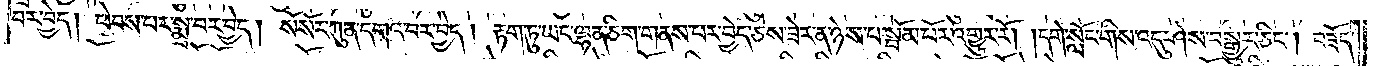བར་བྱེད། ཕེབས་པར་སྨྲ་བར་བྱེད། སོ་སོར་ཀུན་དགའ་བར་བྱེད། རྟག་ཏུ་ཡང་ལྷན་ཅིག་གནས་པར་བྱེད་ཅེས་ཟེར་ན་ཉེས་པ་སྦོམ་པོར་འགྱུར་རོ། །དགེ་སློང་གིས་འདུ་ཤེས་བསྒྱུར་ཅིང༌། བཟོད་
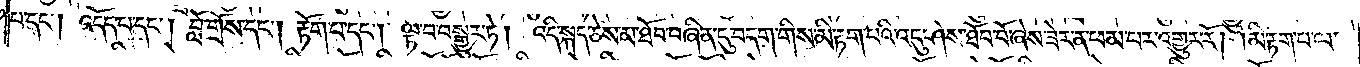པ་དང༌། འདོད་པ་དང༌། བློ་གྲོས་དང༌། རྟོག་པ་དང༌། ལྟ་བ་བསྒྱུར་ཏེ། འདི་སྐད་ཅེས་མ་ཐོབ་བཞིན་དུ་བདག་གིས་མི་རྟག་པའི་འདུ་ཤེས་ཐོབ་བོ་ཞེས་ཟེར་ན་ཕམ་པར་འགྱུར་རོ། །མི་རྟག་པ་ལ་
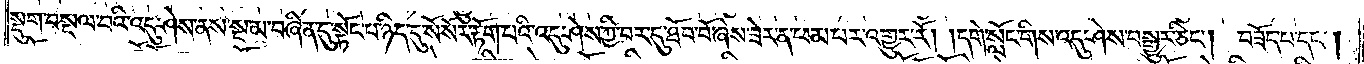སྡུག་བསྔལ་བའི་འདུ་ཤེས་ནས་སྔ་མ་བཞིན་དུ་སྟོང་པ་ཉིད་དུ་སོ་སོར་རྟོག་པའི་འདུ་ཤེས་ཀྱི་བར་དུ་ཐོབ་བོ་ཞེས་ཟེར་ན་ཕམ་པར་འགྱུར་རོ། །དགེ་སློང་གིས་འདུ་ཤེས་བསྒྱུར་ཅིང༌། བཟོད་པ་དང༌།
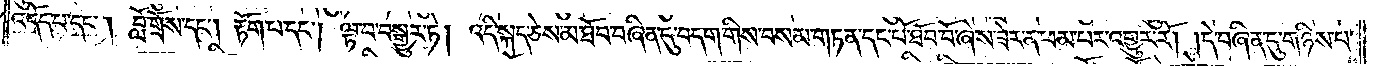འདོད་པ་དང༌། བློ་གྲོས་དང༌། རྟོག་པ་དང༌། ལྟ་བ་བསྒྱུར་ཏེ། འདི་སྐད་ཅེས་མ་ཐོབ་བཞིན་དུ་བདག་གིས་བསམ་གཏན་དང་པོ་ཐོབ་བོ་ཞེས་ཟེར་ན་ཕམ་པར་འགྱུར་རོ། །དེ་བཞིན་དུ་གཉིས་པ་
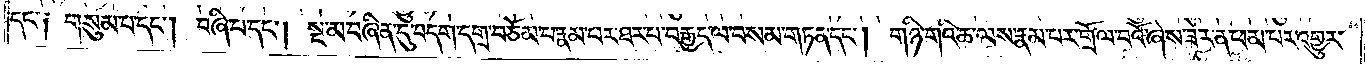དང་༑ གསུམ་པ་དང༌། བཞི་པ་དང༌། སྔ་མ་བཞིན་དུ་བདག་དགྲ་བཅོམ་པ་རྣམ་པར་ཐར་པ་བརྒྱད་ལ་བསམ་གཏན་དང༌། གཉི་གའི་ཆ་ལས་རྣམ་པར་གྲོལ་བའོ་ཞེས་ཟེར་ན་ཕམ་པར་འགྱུར་
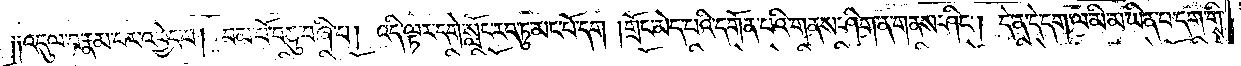༑༑འདུལ་བ་རྣམ་པར་འབྱེད་པ། བམ་པོ་བཅུ་བཞི་པ། འདི་ལྟར་དགེ་སློང་རབ་ཏུ་མང་པོ་དག །གྲོང་མེད་པའི་དགོན་པའི་གནས་ཤིག་ན་གནས་ཤིང༌། དེ་ན་དེ་དག་ལ་མི་མ་ཡིན་པ་དག་གིས་
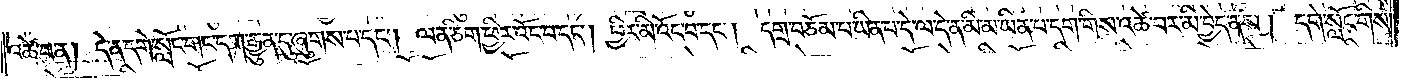འཚེ་བ་ན། དེ་ན་དགེ་སློང་གང་དག་རྒྱུན་དུ་ཞུགས་པ་དང༌། ལན་ཅིག་ཕྱིར་འོང་བ་དང༌། ཕྱིར་མི་འོང་བ་དང༌། དགྲ་བཅོམ་པ་ཡིན་པ་དེ་ལ་དེ་ན་མི་མ་ཡིན་པ་དག་གིས་འཚེ་བར་མི་བྱེད་ནས། དགེ་སློང་གིས་
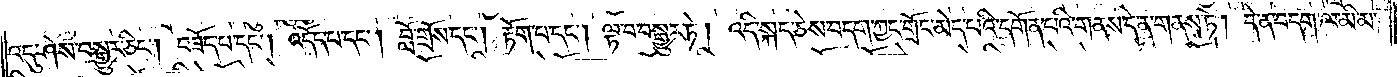འདུ་ཤེས་བསྒྱུར་ཅིང༌། བཟོད་པ་དང༌། འདོད་པ་དང༌། བློ་གྲོས་དང༌། རྟོག་པ་དང༌། ལྟ་བ་བསྒྱུར་ཏེ། འདི་སྐད་ཅེས་བདག་ཀྱང་གྲོང་མེད་པའི་དགོན་པའི་གནས་དེ་ན་གནས་ཏེ། དེ་ན་བདག་ལ་མི་མ་
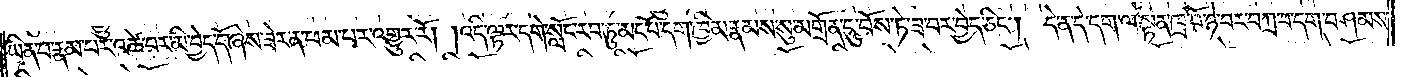ཡིན་པ་རྣམ་པར་འཚེ་བར་མི་བྱེད་དོ་ཞེས་ཟེར་ན་ཕམ་པར་འགྱུར་རོ། །འདི་ལྟར་དགེ་སློང་རབ་ཏུ་མང་པོ་དག་ཁྱིམ་རྣམས་སུ་མགྲོན་དུ་བོས་ཏེ་ཟ་བར་བྱེད་ཅིང༌། དེ་ན་དེ་དག་ལ་སྟན་ཁྲ་བོ་ཉེ་བར་བཀྲ་བ་དག་བཤམས་
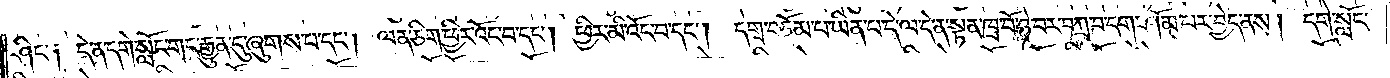ཤིང་༑ དེ་ན་དགེ་སློང་གང་རྒྱུན་དུ་ཞུགས་པ་དང༌། ལན་ཅིག་ཕྱིར་འོང་བ་དང༌། ཕྱིར་མི་འོང་བ་དང༌། དགྲ་བཅོམ་པ་ཡིན་པ་དེ་ལ་དེ་ན་སྟན་ཁྲ་བོ་ཉེ་བར་བཀྲ་བ་དག་ཤོམ་པར་བྱེད་ནས། དགེ་སློང་
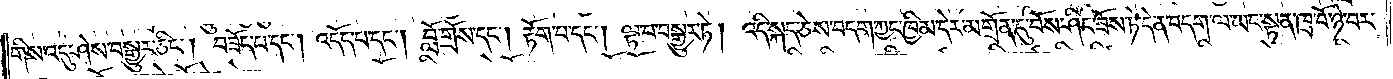གིས་འདུ་ཤེས་བསྒྱུར་ཅིང༌། བཟོད་པ་དང༌། འདོད་པ་དང༌། བློ་གྲོས་དང༌། རྟོག་པ་དང༌། ལྟ་བ་བསྒྱུར་ཏེ། འདི་སྐད་ཅེས་བདག་ཀྱང་ཁྱིམ་དེར་མགྲོན་དུ་བོས་ཤིང་ཟོས་ཏེ་དེ་ན་བདག་ལ་ཡང་སྟན་ཁྲ་བོ་ཉེ་བར་
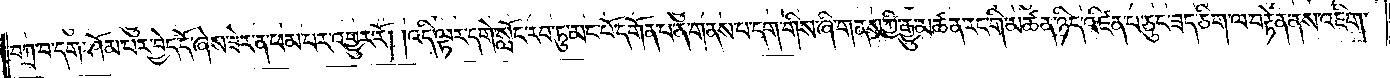བཀྲ་བ་དག་ཤོམ་པར་བྱེད་དོ་ཞེས་ཟེར་ན་ཕམ་པར་འགྱུར་རོ། །འདི་ལྟར་དགེ་སློང་རབ་ཏུ་མང་པོ་དགོན་པ་ན་གནས་པ་དག་གིས་ཞི་གནས་ཀྱི་རྒྱུ་མཚན་རང་གི་མཚན་ཉིད་འཛིན་པ་ཅུང་ཟད་ཅིག་ལ་བརྟེན་ནས་འཇིག་
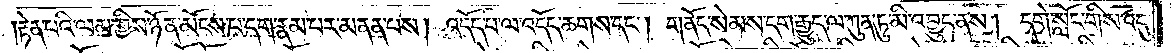རྟེན་པའི་ལམ་གྱིས་ཉོན་མོངས་པ་དག་རྣམ་པར་མནན་པས། འདོད་པ་ལ་འདོད་ཆགས་དང༌། གནོད་སེམས་དག་རྒྱུད་ལ་ཀུན་ཏུ་མི་འབྱུང་ནས། དགེ་སློང་གིས་འདུ་
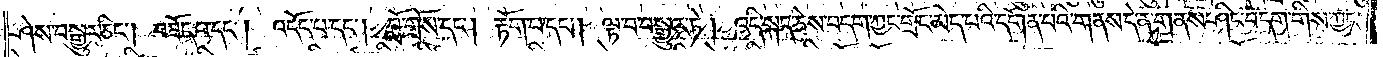ཤེས་བསྒྱུར་ཅིང༌། བཟོད་པ་དང༌། འདོད་པ་དང༌། བློ་གྲོས་དང༌། རྟོག་པ་དང༌། ལྟ་བ་བསྒྱུར་ཏེ། འདི་སྐད་ཅེས་བདག་ཀྱང་གྲོང་མེད་པའི་དགོན་པའི་གནས་དེ་ན་གནས་ཤིང་བདག་གིས་ཀྱང་
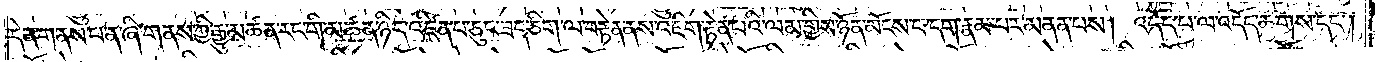དེ་ན་གནས་པ་ན་ཞི་གནས་ཀྱི་རྒྱུ་མཚན་རང་གི་མཚན་ཉིད་འཛིན་པ་ཅུང་ཟད་ཅིག་ལ་བརྟེན་ནས་འཇིག་རྟེན་པའི་ལམ་གྱིས་ཉོན་མོངས་པ་དག་རྣམ་པར་མནན་པས། འདོད་པ་ལ་འདོད་ཆགས་དང༌།
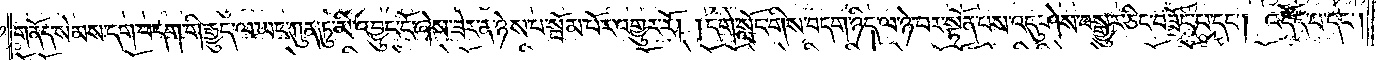གནོད་སེམས་དག་བདག་གི་རྒྱུད་ལ་ཡང་ཀུན་ཏུ་མི་འབྱུང་ངོ་ཞེས་ཟེར་ན་ཉེས་པ་སྦོམ་པོར་འགྱུར་རོ། །དགེ་སློང་གིས་བདག་ཉིད་ལ་ཉེ་བར་སྟོན་པས་འདུ་ཤེས་བསྒྱུར་ཅིང་བཟོད་པ་དང༌། འདོད་པ་དང་།
